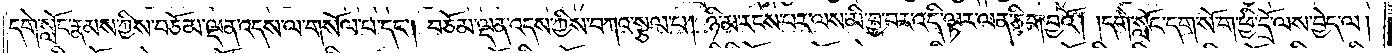དགེ་སློང་རྣམས་ཀྱིས་བཅོམ་ལྡན་འདས་ལ་གསོལ་པ་དང༌། བཅོམ་ལྡན་འདས་ཀྱིས་བཀའ་སྩལ་པ། ཉི་མ་རངས་པར་ལས་མི་བྱ་བར་འདི་ལྟར་ལན་ཅིག་བྱའོ། །དགེ་སློང་དག་སོ་ག་ཕྱི་དྲོ་ལས་བྱེད་ལ།
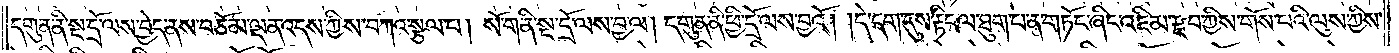དགུན་ནི་སྔ་དྲོ་ལས་བྱེད་ནས་བཅོམ་ལྡན་འདས་ཀྱིས་བཀའ་སྩལ་པ། སོ་ག་ནི་སྔ་དྲོ་ལས་བྱ་བ་ལ། དགུན་ནི་ཕྱི་དྲོ་ལས་བྱའོ། །དེ་དག་དུས་རྟིང་ལ་ཐུག་པ་ན་གཏོང་ཞིང་འཇིམ་རྫབ་ཀྱིས་གོས་པའི་ལུས་ཀྱིས་
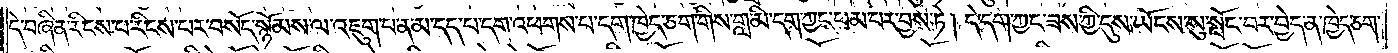དེ་བཞིན་རིངས་པ་རིངས་པར་བསོད་སྙོམས་ལ་འཇུག་པ་ན་མ་དད་པ་དག་འཕགས་པ་དག་ཁྱེད་ཅག་གིས་གླ་མི་དག་ཀྱང་ཕམ་པར་བྱས་ཏེ། དེ་དག་ཀྱང་ཟས་ཀྱི་དུས་ཡོངས་སུ་སྤོང་བར་བྱེད་ན་ཁྱེད་ཅག་
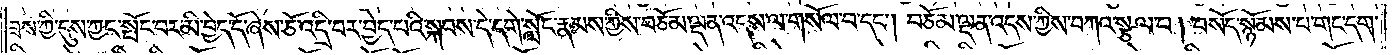ཟས་ཀྱི་དུས་ཀྱང་སྤོང་བར་མི་བྱེད་དོ་ཞེས་ཅོ་འདྲི་བར་བྱེད་པའི་སྐབས་དེ་དགེ་སློང་རྣམས་ཀྱིས་བཅོམ་ལྡན་འདས་ལ་གསོལ་བ་དང༌། བཅོམ་ལྡན་འདས་ཀྱིས་བཀའ་སྩལ་པ། བསོད་སྙོམས་པ་གང་དག་
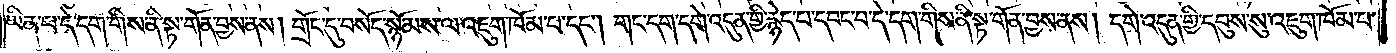ཡིན་པ་དེ་དག་གིས་ནི་སྟ་གོན་བྱས་ནས། གྲོང་དུ་བསོད་སྙོམས་ལ་འཇུག་ཁོམ་པ་དང༌། གང་དག་དགེ་འདུན་གྱི་རྙེད་པ་དབང་བ་དེ་དག་གིས་ནི་སྟ་གོན་བྱས་ནས། དགེ་འདུན་གྱི་དབུས་སུ་འཇུག་ཁོམ་པ་
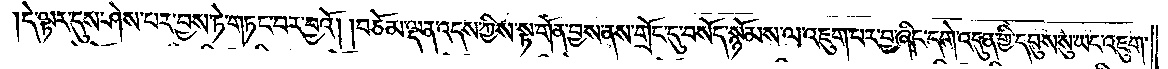དེ་ལྟར་དུས་ཤེས་པར་བྱས་ཏེ་གཏང་བར་བྱའོ། །བཅོམ་ལྡན་འདས་ཀྱིས་སྟ་གོན་བྱས་ནས་གྲོང་དུ་བསོད་སྙོམས་ལ་འཇུག་པར་བྱ་ཞིང་དགེ་འདུན་གྱི་དབུས་སུ་ཡང་འཇུག་
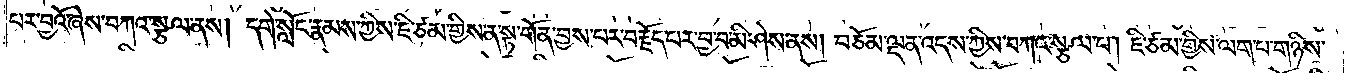པར་བྱའོ་ཞེས་བཀའ་སྩལ་ནས། དགེ་སློང་རྣམས་ཀྱིས་ཇི་ཙམ་གྱིས་ན་སྟ་གོན་བྱས་པར་བརྗོད་པར་བྱ་བ་མི་ཤེས་ནས། བཅོམ་ལྡན་འདས་ཀྱིས་བཀའ་སྩལ་པ། ཇི་ཙམ་གྱིས་ལག་པ་གཉིས་
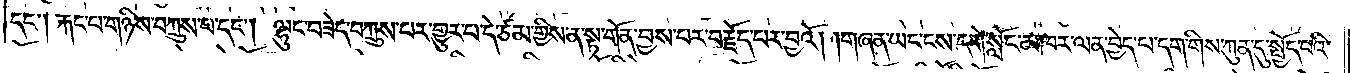དང༌། རྐང་པ་གཉིས་བཀྲུས་པ་དང༌། ལྷུང་བཟེད་བཀྲུས་པར་གྱུར་པ་དེ་ཙམ་གྱིས་ན་སྟ་གོན་བྱས་པར་བརྗོད་པར་བྱའོ། །གཞན་ཡང་ངས་དགེ་སློང་མཁར་ལན་བྱེད་པ་དག་གིས་ཀུན་དུ་སྤྱོད་པའི་
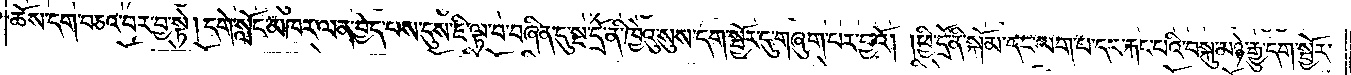ཆོས་དག་བཅའ་བར་བྱ་སྟེ། དགེ་སློང་མཁར་ལན་བྱེད་པས་དུས་ཇི་ལྟ་བ་བཞིན་དུ་སྔ་དྲོ་ནི་ཁྱེའུ་སུས་དག་སྦྱོར་དུ་གཞུག་པར་བྱའོ། །ཕྱི་དྲོ་ནི་སྐོམ་དང་ལག་པ་དང་རྐང་པའི་བསྐུ་མཉེ་རྒྱུ་དག་སྦྱོར་
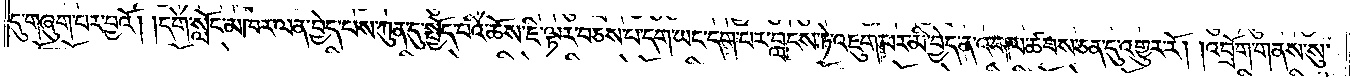དུ་གཞུག་པར་བྱའོ། །དགེ་སློང་མཁར་ལན་བྱེད་པས་ཀུན་དུ་སྤྱོད་པའི་ཆོས་ཇི་ལྟར་བཅས་པ་དག་ཡང་དག་པར་བླངས་ཏེ་འཇུག་པར་མི་བྱེད་ན་འགལ་ཚབས་ཅན་དུ་འགྱུར་རོ། །འབྲོག་གནས་སུ་
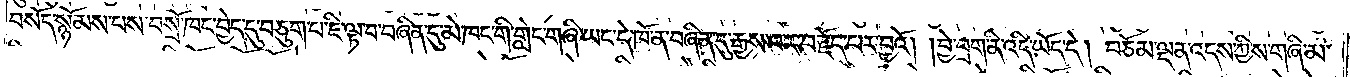བསོད་སྙོམས་པས་བསྲོ་ཁང་བྱེད་དུ་བཅུག་པ་ཇི་ལྟ་བ་བཞིན་དུ་མེ་ཁང་གི་གླེང་གཞི་ཡང་དེ་ཁོ་ན་བཞིན་དུ་རྒྱས་པར་བརྗོད་པར་བྱའོ། །བྱེ་བྲག་ནི་འདི་ཡོད་དེ། བཅོམ་ལྡན་འདས་ཀྱིས་གཞི་མ་
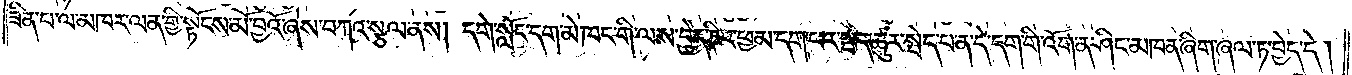ཟིན་པ་ལ་མཁར་ལན་གྱི་སྟོངས་མོ་བྱའོ་ཞེས་བཀའ་སྩལ་ནས། དགེ་སློང་དག་མེ་ཁང་གི་ལས་བྱེད་ཅིང་ཕམ་དག་ཕར་སྦེད་ཚུར་སྦེད་པ་ན་དེ་དག་གི་འོག་ན་ཤིང་མཁན་ཞིག་ཞལ་ཏ་བྱེད་དེ།
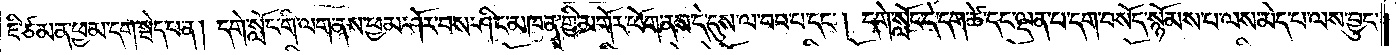ཇི་ཙམ་ན་ཕྱམ་དག་སྦེད་པ་ན། དགེ་སློང་གི་ལག་ནས་ཕྱམ་ཤོར་བས་ཤིང་མཁན་གྱི་མགོར་ཕོག་ནས་དེ་དུས་ལ་བབ་པ་དང༌། དགེ་སློང་དེ་དག་ཚེ་དང་ལྡན་པ་དག་བསོད་སྙོམས་པ་ལས་མེད་པ་ལས་བྱུང་
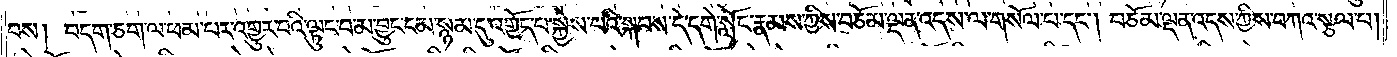བས། བདག་ཅག་ལ་ཕམ་པར་འགྱུར་བའི་ལྟུང་བ་མ་བྱུང་ངམ་སྙམ་དུ་འགྱོད་པ་སྐྱེས་པའི་སྐབས་དེ་དགེ་སློང་རྣམས་ཀྱིས་བཅོམ་ལྡན་འདས་ལ་གསོལ་པ་དང༌། བཅོམ་ལྡན་འདས་ཀྱིས་བཀའ་སྩལ་པ།
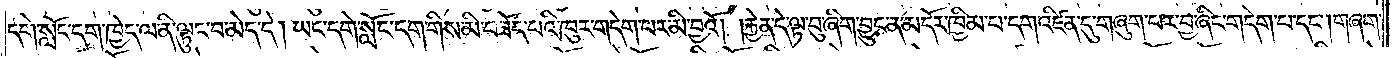དགེ་སློང་དག་ཁྱེད་ལ་ནི་ལྟུང་བ་མེད་དེ། ཡང་དགེ་སློང་དག་གིས་མི་བཟོད་པའི་ཁུར་གདེག་པར་མི་བྱའོ། །རྐྱེན་དེ་ལྟ་བུ་ཞིག་བྱུང་ན་མདོར་ཁྱིམ་པ་དག་འཛིན་དུ་གཞུག་པར་བྱ་ཞིང་གདེག་པ་དང༌། གཞག་
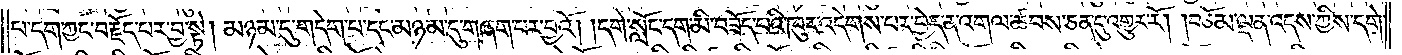པ་དག་ཀྱང་བརྗོད་པར་བྱ་སྟེ། མཉམ་དུ་གདེག་པ་དང་མཉམ་དུ་གཞག་པར་བྱའོ། །དགེ་སློང་དག་མི་བཟོད་པའི་ཁུར་འདེགས་པར་བྱེད་ན་འགལ་ཚབས་ཅན་དུ་འགྱུར་རོ། །བཅོམ་ལྡན་འདས་ཀྱིས་དགེ་
